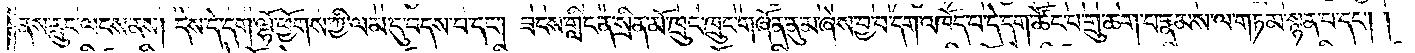ནས་རླུང་ལངས་ནས། དེས་དེ་དག་ལྷོ་ཕྱོགས་ཀྱི་ལམ་དུ་བདས་པ་དང༌། ཟངས་གླིང་ན་སྲིན་མོ་ཁྲུང་ཁྲུང་གཞོན་ནུ་མ་ཞེས་བྱ་བ་དག་འཁོད་པ་དེ་དག་ཚོང་པ་གྲུ་ཆག་པ་རྣམས་ལ་གཏམ་སྙན་པ་དང༌། །
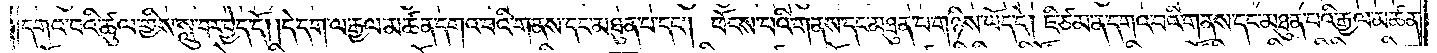དགའ་བའི་ཚུལ་གྱིས་སླུ་བར་བྱེད་དོ། །དེ་དག་ལ་རྒྱལ་མཚན་དགའ་བའི་གནས་དང་མཐུན་པ་དང༌། ཕོངས་པའི་གནས་དང་མཐུན་པ་གཉིས་ཡོད་དེ། ཇི་ཙམ་ན་དགའ་བའི་གནས་དང་མཐུན་པའི་རྒྱལ་མཚན་
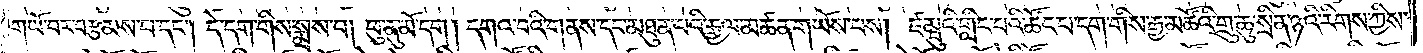གཡོ་བར་བརྩམས་པ་དང༌། དེ་དག་གིས་སྨྲས་པ། ཕུ་ནུ་མོ་དག །དགའ་བའི་གནས་དང་མཐུན་པའི་རྒྱལ་མཚན་གཡོས་པས། ཛམྦུའི་གླིང་པའི་ཚོང་པ་དག་གིས་རྒྱ་མཚོའི་གྲུ་ཆུ་སྲིན་ཉའི་རིགས་ཀྱིས་
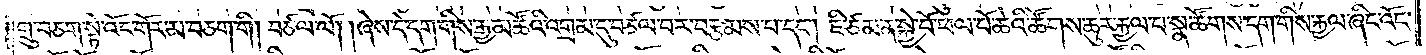གྲུ་བཅག་སྟེ་འོང་གོར་མ་བཅག་གི། བཙལ་ལོ། །ཞེས་དེ་དག་གིས་རྒྱ་མཚོའི་འགྲམ་དུ་བཙལ་བར་བརྩམས་པ་དང༌། ཇི་ཙམ་ན་སྐྱེ་བོ་ཕལ་པོ་ཆེའི་ཚོགས་ཆུར་རྐྱལ་བ་སྣ་ཚོགས་དག་གིས་རྐྱལ་ཞིང་འོང་
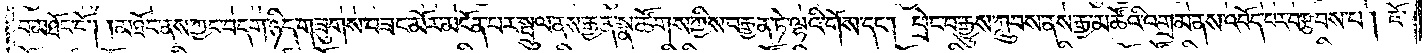བ་མཐོང་ངོ༌། །མཐོང་ནས་ཀྱང་བདག་ཉིད་གཟུགས་བཟང་མོར་མངོན་པར་སྤྲུལ་ནས་རྒྱན་སྣ་ཚོགས་ཀྱིས་བརྒྱན་ཏེ་ལྷའི་གོས་དང༌། ཕྲེང་བ་རྒྱུས་ཀླུབས་ནས་རྒྱ་མཚོའི་འགྲམ་ནས་འབོད་པར་བརྩབས་པ། ཇོ་
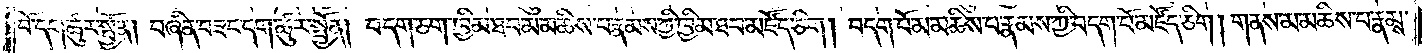བོ་དག་ཚུར་སྤྱོན། བཞིན་བཟང་དག་ཚུར་སྤྱོན། བདག་ཅག་ཁྱིམ་ཐབ་མ་མཆིས་པ་རྣམས་ཀྱི་ཁྱིམ་ཐབ་མཛོད་ཅིག །བདག་པོ་མ་མཆིས་པ་རྣམས་ཀྱི་བདག་པོ་མཛོད་ཅིག །གནས་མ་མཆིས་པ་རྣམས་
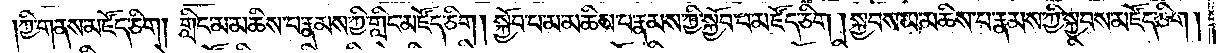ཀྱི་གནས་མཛོད་ཅིག། གླིང་མ་མཆིས་པ་རྣམས་ཀྱི་གླིང་མཛོད་ཅིག །སྐྱོབ་པ་མ་མཆིས་པ་རྣམས་ཀྱི་སྐྱོབ་པ་མཛོད་ཅི་།སྐྱབས་མ་མཆིས་པ་རྣམས་ཀྱི་སྐྱབས་མཛོད་ཅིག །
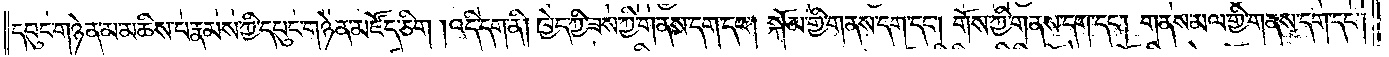དཔུང་གཉེན་མ་མཆིས་པ་རྣམས་ཀྱི་དཔུང་གཉེན་མཛོད་ཅིག །འདི་དག་ནི། ཁྱེད་ཀྱི་ཟས་ཀྱི་གནས་དག་དང༌། སྐོམ་གྱི་གནས་དག་དང༌། གོས་ཀྱི་གནས་དག་དང༌། གནས་མལ་གྱི་གནས་དག་དང༌།
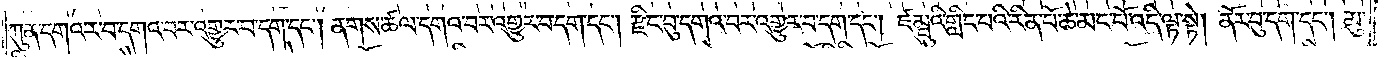ཀུན་དགའ་ར་བ་དགའ་བར་འགྱུར་བ་དག་དང༌། ནགས་ཚལ་དགའ་བར་འགྱུར་པ་དག་དང༌། རྫིང་བུ་དགའ་བར་འགྱུར་བ་དག་དང༌། ཛམྦུའི་གླིང་པའི་རིན་པོ་ཆེ་མང་པོ་འདི་ལྟ་སྟེ། ནོར་བུ་དང༌། མུ་
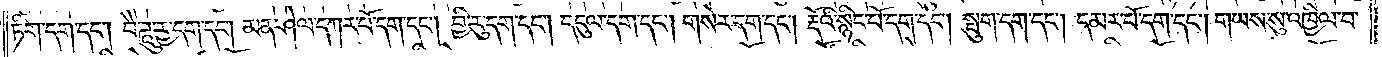ཏིག་དག་དང༌། བཻ་ཌཱུཪྻ་དག་དང༌། མན་ཤེལ་དཀར་པོ་དག་དང༌། བྱི་རུ་དག་དང༌། དངུལ་དག་དང༌། གསེར་དག་དང༌། རྡོའི་སྙིང་པོ་དག་དང༌། སྤུག་དག་དང༌། དམར་པོ་དག་དང༌། གཡས་སུ་འཁྱིལ་བ་
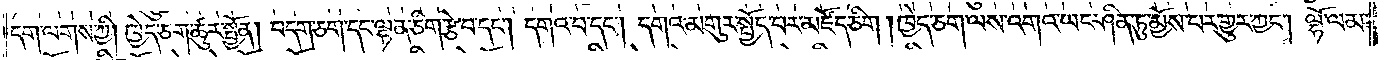དག་ལགས་ཀྱི། ཁྱེད་ཅག་ཚུར་སྤྱོན། བདག་ཅག་དང་ལྷན་ཅིག་རྩེ་བ་དང༌། དགའ་བ་དང༌། དགའ་མགུར་སྤྱོད་པར་མཛོད་ཅིག །ཁྱེད་ཅག་ལས་འགའ་ཡང་ཤིན་ཏུ་མྱོས་པར་གྱུར་ཀྱང༌། ལྷོ་ལམ་
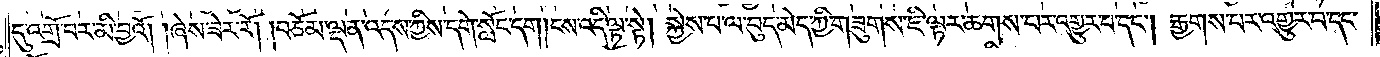དུ་འགྲོ་བར་མི་བྱའོ། །ཞེས་ཟེར་རོ། །བཅོམ་ལྡན་འདས་ཀྱིས་དགེ་སློང་དག །ངས་འདི་ལྟ་སྟེ། སྐྱེས་པ་ལ་བུད་མེད་ཀྱི་གཟུགས་ཇི་ལྟར་ཆགས་པར་འགྱུར་བ་དང༌། རྒྱགས་པར་འགྱུར་བ་དང་
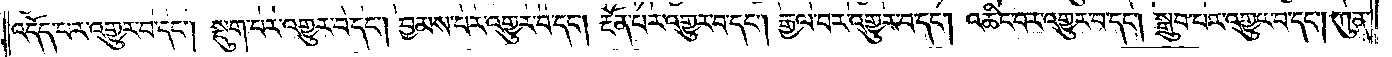འདོད་པར་འགྱུར་བ་དང༌། སྡུག་པར་འགྱུར་བ་དང༌། བྱམས་པར་འགྱུར་བ་དང༌། རྔོན་པར་འགྱུར་བ་དང༌། རྒྱལ་བར་འགྱུར་བ་དང༌། འཆིང་བར་འགྱུར་བ་དང༌། སྒྲུབ་པར་འགྱུར་བ་དང༌། ཀུན་
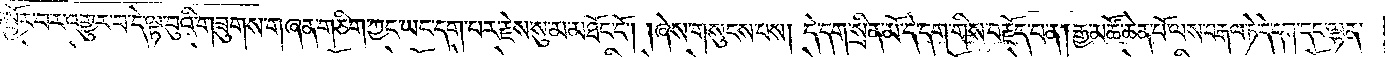ཏུ་སྦྱོར་བར་འགྱུར་བ་དེ་ལྟ་བུའི་གཟུགས་གཞན་གཅིག་ཀྱང་ཡང་དག་པར་རྗེས་སུ་མ་མཐོང་ངོ༌། །ཞེས་གསུངས་པས། དེ་དག་སྲིན་མོ་དེ་དག་གིས་བརྗོད་པ་ན། རྒྱ་མཚོ་ཆེན་པོ་ལས་བརྒལ་ཏེ་དེ་དག་དང་ལྷན་
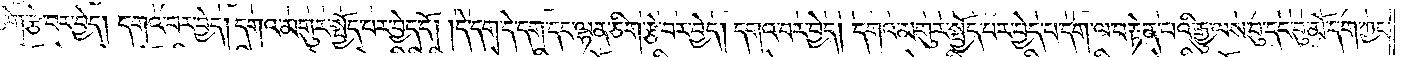ཅིག་རྩེ་བར་བྱེད། དགའ་བར་བྱེད། དགའ་མགུར་སྤྱོད་པར་བྱེད་དོ། །དེ་དག་དེ་དག་དང་ལྷན་ཅིག་རྩེ་བར་བྱེད། དགའ་བར་བྱེད། དགའ་མགུར་སྤྱོད་པར་བྱེད་པ་དག་ལ་བརྟེན་པའི་རྒྱུ་ལས་བུ་དང་བུ་མོ་དག་ཀྱང་
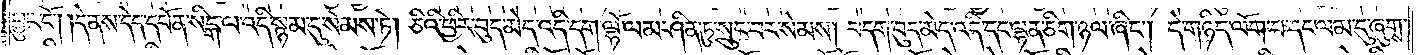བྱུང་ངོ༌། །དེ་ནས་དེད་དཔོན་སིངྒ་ལ་འདི་སྙམ་དུ་སེམས་ཏེ། ཅིའི་ཕྱིར་བུད་མེད་འདི་དག་ལྷོ་ལམ་ཤིན་ཏུ་སྲུང་བར་སེམས། བདག་བུད་མེད་འདི་དང་ལྷན་ཅིག་ཉལ་ཞིང༌། དེ་གཉིད་ལོག་པ་དང་ལམ་དུ་ཞུགས་
